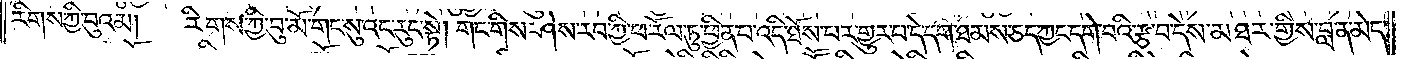རིགས་ཀྱི་བུའམ། རིགས་ཀྱི་བུ་མོ་གང་སུའང་རུང་སྟེ། གང་གིས་ཤེས་རབ་ཀྱི་ཕ་རོལ་ཏུ་ཕྱིན་པ་འདི་ཐོས་པར་གྱུར་པ་དེ་དག་ཐམས་ཅད་ཀྱང་དགེ་བའི་རྩ་བ་དེས་མཐར་གྱིས་བླ་ན་མེད་
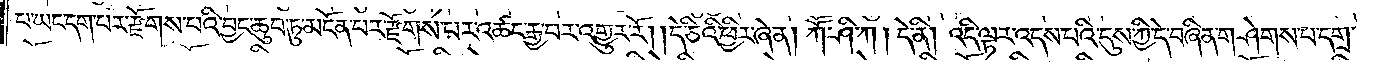པ་ཡང་དག་པར་རྫོགས་པའི་བྱང་ཆུབ་ཏུ་མངོན་པར་རྫོགས་པར་འཚང་རྒྱ་བར་འགྱུར་རོ། །དེ་ཅིའི་ཕྱིར་ཞེ་ན། ཀཽ་ཤི་ཀ། དེ་ནི། འདི་ལྟར་འདས་པའི་དུས་ཀྱི་དེ་བཞིན་གཤེགས་པ་དགྲ་
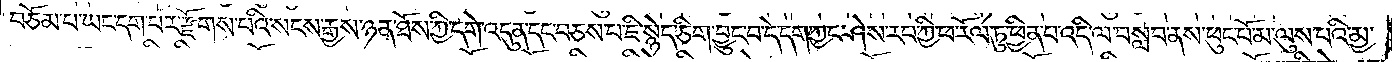བཅོམ་པ་ཡང་དག་པར་རྫོགས་པའི་སངས་རྒྱས་ཉན་ཐོས་ཀྱི་དགེ་འདུན་དང་བཅས་པ་ཇི་སྙེད་ཅིག་བྱུང་བ་དེ་དག་ཀྱང་ཤེས་རབ་ཀྱི་ཕ་རོལ་ཏུ་ཕྱིན་པ་འདི་ལ་བསླབ་ནས་ཕུང་པོ་མ་ལུས་པའི་མྱ་
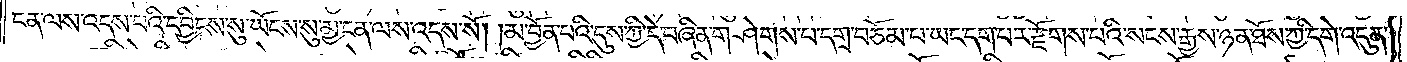ངན་ལས་འདས་པའི་དབྱིངས་སུ་ཡོངས་སུ་མྱ་ངན་ལས་འདས་སོ། །མ་བྱོན་པའི་དུས་ཀྱི་དེ་བཞིན་གཤེགས་པ་དགྲ་བཅོམ་པ་ཡང་དག་པར་རྫོགས་པའི་སངས་རྒྱས་ཉན་ཐོས་ཀྱི་དགེ་འདུན་
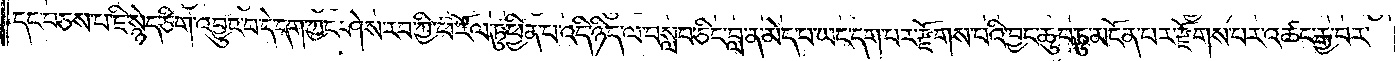དང་བཅས་པ་ཇི་སྙེད་ཅིག་འབྱུང་བ་དེ་དག་ཀྱང་ཤེས་རབ་ཀྱི་ཕ་རོལ་ཏུ་ཕྱིན་པ་འདི་ཉིད་ལ་བསླབ་ཅིང་བླ་ན་མེད་པ་ཡང་དག་པར་རྫོགས་པའི་བྱང་ཆུབ་ཏུ་མངོན་པར་རྫོགས་པར་འཚང་རྒྱ་བར་
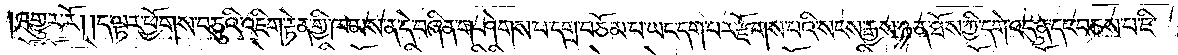འགྱུར་རོ། །དེ་ལྟར་ཕྱོགས་བཅུའི་འཇིག་རྟེན་གྱི་ཁམས་ན་དེ་བཞིན་གཤེགས་པ་དགྲ་བཅོམ་པ་ཡང་དག་པར་རྫོགས་པའི་སངས་རྒྱས་ཉན་ཐོས་ཀྱི་དགེ་འདུན་དང་བཅས་པ་ཇི་
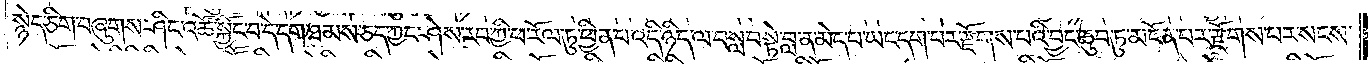སྙད་ཅིག་བཞུགས་ཤིང་འཚོ་སྐྱོང་བ་དེ་དག་ཐམས་ཅད་ཀྱང་ཤེས་རབ་ཀྱི་ཕ་རོལ་ཏུ་ཕྱིན་པ་འདི་ཉིད་ལ་བསླབ་སྟེ་བླ་ན་མེད་པ་ཡང་དག་པར་རྫོགས་པའི་བྱང་ཆུབ་ཏུ་མངོན་པར་རྫོགས་པར་སངས་
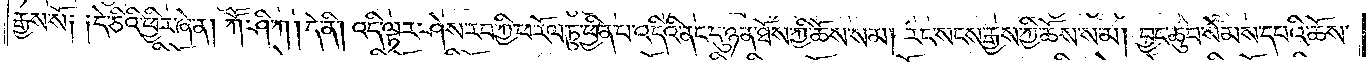རྒྱས་སོ། །དེ་ཅིའི་ཕྱིར་ཞེ་ན། ཀཽ་ཤི་ཀ། དེ་ནི། འདི་ལྟར་ཤེས་རབ་ཀྱི་ཕ་རོལ་ཏུ་ཕྱིན་པ་འདིའི་ནང་དུ་ཉན་ཐོས་ཀྱི་ཆོས་སམ། རང་སངས་རྒྱས་ཀྱི་ཆོས་སམ། བྱང་ཆུབ་སེམས་དཔའི་ཆོས་
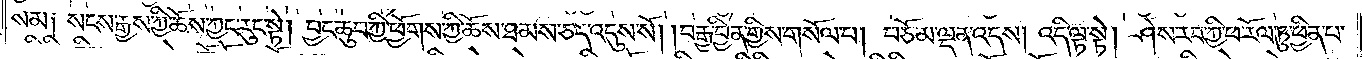སམ༑ སངས་རྒྱས་ཀྱི་ཆོས་ཀྱང་རུང་སྟེ། བྱང་ཆུབ་ཀྱི་ཕྱོགས་ཀྱི་ཆོས་ཐམས་ཅད་འདུས་སོ། །བརྒྱ་བྱིན་གྱིས་གསོལ་པ། བཅོམ་ལྡན་འདས། འདི་ལྟ་སྟེ། ཤེས་རབ་ཀྱི་ཕ་རོལ་ཏུ་ཕྱིན་པ་
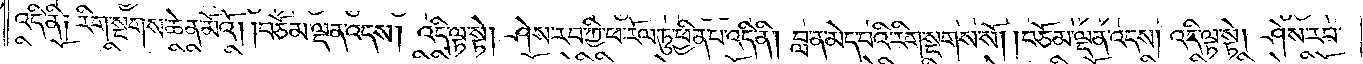འདི་ནི། རིག་སྔགས་ཆེན་མོའོ། །བཅོམ་ལྡན་འདས། འདི་ལྟ་སྟེ། ཤེས་རབ་ཀྱི་ཕ་རོལ་ཏུ་ཕྱིན་པ་འདི་ནི། བླ་ན་མེད་པའི་རིག་སྔགས་སོ། །བཅོམ་ལྡན་འདས། འདི་ལྟ་སྟེ། ཤེས་རབ་
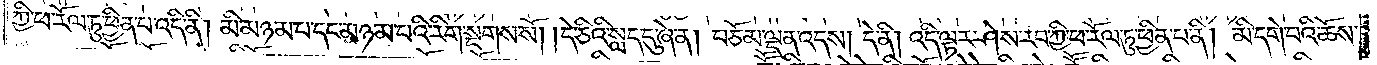ཀྱི་ཕ་རོལ་ཏུ་ཕྱིན་པ་འདི་ནི། མི་མཉམ་པ་དང་མཉམ་པའི་རིག་སྔགས་སོ། །དེ་ཅིའི་སླད་དུ་ཞེ་ན། བཅོམ་ལྡན་འདས། དེ་ནི། འདི་ལྟར་ཤེས་རབ་ཀྱི་ཕ་རོལ་ཏུ་ཕྱིན་པ་ནི། མི་དགེ་བའི་ཆོས་
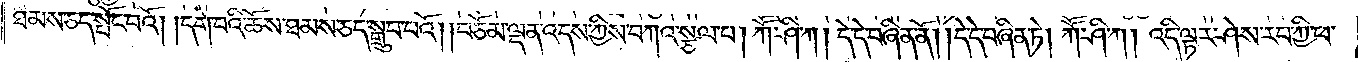ཐམས་ཅད་སྤོང་པའོ། །དགེ་བའི་ཆོས་ཐམས་ཅད་སྒྲུབ་པའོ། །བཅོམ་ལྡན་འདས་ཀྱིས་བཀའ་སྩལ་པ། ཀཽ་ཤི་ཀ། དེ་དེ་བཞིན་ནོ། །དེ་དེ་བཞིན་ཏེ། ཀཽ་ཤི་ཀ། འདི་ལྟར་ཤེས་རབ་ཀྱི་ཕ་
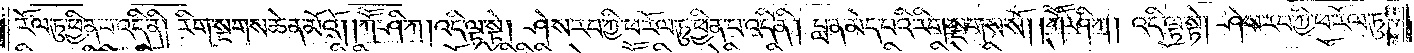རོལ་ཏུ་ཕྱིན་པའི་འདི་ནི། རིག་སྔགས་ཆེན་མོའོ། ཀཽ་ཤི་ཀ། འདི་ལྟ་སྟེ། ཤེས་རབ་ཀྱི་ཕ་རོལ་ཏུ་ཕྱིན་པ་འདི་ནི། བླ་ན་མེད་པའི་རིག་སྔགས་སོ། །ཀཽ་ཤི་ཀ། འདི་ལྟ་སྟེ། ཤེས་རབ་ཀྱི་ཕ་རོལ་ཏུ་
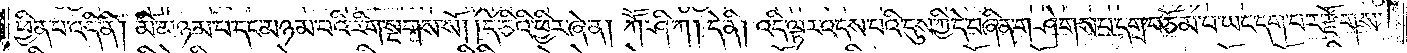ཕྱིན་པ་འདི་ནི། མི་མཉམ་པ་དང་མཉམ་པའི་རིག་སྔགས་སོ། །དེ་ཅིའི་ཕྱིར་ཞེ་ན། ཀཽ་ཤི་ཀ། དེ་ནི། འདི་ལྟར་འདས་པའི་དུས་ཀྱི་དེ་བཞིན་གཤེགས་པ་དགྲ་བཅོམ་པ་ཡང་དག་པར་རྫོགས་
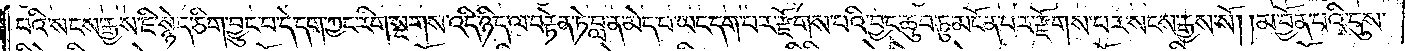པའི་སངས་རྒྱས་ཇི་སྙེད་ཅིག་བྱུང་བ་དེ་དག་ཀྱང་རིག་སྔགས་འདི་ཉིད་ལ་བརྟེན་ཏེ་བླ་ན་མེད་པ་ཡང་དག་པར་རྫོགས་པའི་བྱང་ཆུབ་ཏུ་མངོན་པར་རྫོགས་པར་སངས་རྒྱས་སོ། །མ་བྱོན་པའི་དུས་
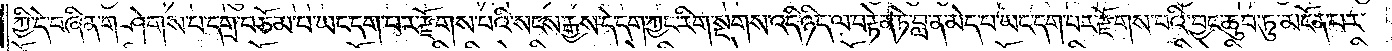ཀྱི་དེ་བཞིན་གཤེགས་པ་དགྲ་བཅོམ་པ་ཡང་དག་པར་རྫོགས་པའི་སངས་རྒྱས་དེ་དག་ཀྱང་རིག་སྔགས་འདི་ཉིད་ལ་བརྟེན་ཏེ་བླ་ན་མེད་པ་ཡང་དག་པར་རྫོགས་པའི་བྱང་ཆུབ་ཏུ་མངོན་པར་
